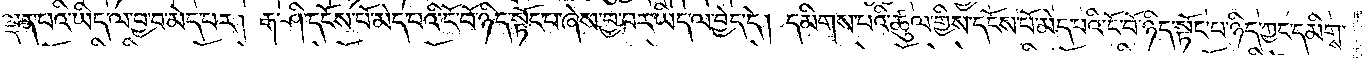ལྡན་པའི་ཡིད་ལ་བྱ་བ་མེད་པར། རྒ་ཤི་དངོས་པོ་མེད་པའི་ངོ་བོ་ཉིད་སྟོང་པ་ཞེས་བྱ་བར་ཡིད་ལ་བྱེད་དེ། དམིགས་པའི་ཚུལ་གྱིས་དངོས་པོ་མེད་པའི་ངོ་བོ་ཉིད་སྟོང་པ་ཉིད་ཀྱང་དམིགས་
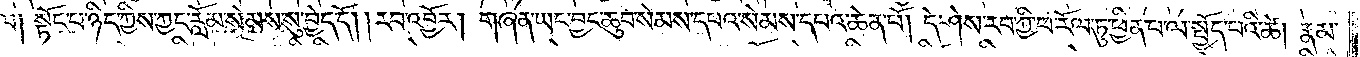ལ། སྟོང་པ་ཉིད་ཀྱིས་ཀྱང་རློམ་སེམས་སུ་བྱེད་དོ། །རབ་འབྱོར། གཞན་ཡང་བྱང་ཆུབ་སེམས་དཔའ་སེམས་དཔའ་ཆེན་པོ། དེ་ཤེས་རབ་ཀྱི་ཕ་རོལ་ཏུ་ཕྱིན་པ་ལ་སྤྱོད་པའི་ཚེ། རྣམ་
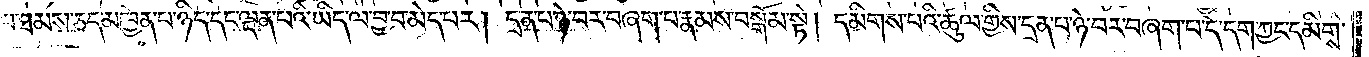པ་ཐམས་ཅད་མཁྱེན་པ་ཉིད་དང་ལྡན་པའི་ཡིད་ལ་བྱ་བ་མེད་པར། དྲན་པ་ཉེ་བར་བཞག་པ་རྣམས་བསྒོམ་སྟེ། དམིགས་པའི་ཚུལ་གྱིས་དྲན་པ་ཉེ་བར་བཞག་པ་དེ་དག་ཀྱང་དམིགས་
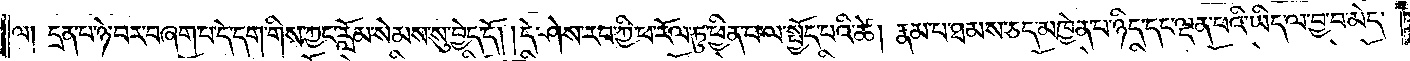ལ། དྲན་པ་ཉེ་བར་བཞག་པ་དེ་དག་གིས་ཀྱང་རློམ་སེམས་སུ་བྱེད་དོ། །དེ་ཤེས་རབ་ཀྱི་ཕ་རོལ་ཏུ་ཕྱིན་པ་ལ་སྤྱོད་པའི་ཚེ། རྣམ་པ་ཐམས་ཅད་མཁྱེན་པ་ཉིད་དང་ལྡན་པའི་ཡིད་ལ་བྱ་བ་མེད་
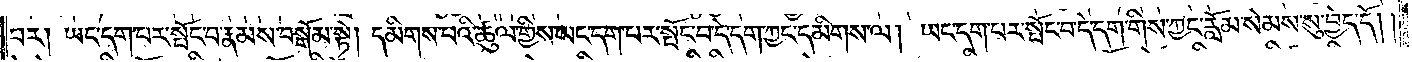པར། ཡང་དག་པར་སྤོང་བ་རྣམས་བསྒོམ་སྟེ། དམིགས་པའི་ཚུལ་གྱིས་ཡང་དག་པར་སྤོང་བ་དེ་དག་ཀྱང་དམིགས་ལ། ཡང་དག་པར་སྤོང་བ་དེ་དག་གིས་ཀྱང་རློམ་སེམས་སུ་བྱེད་དོ༎
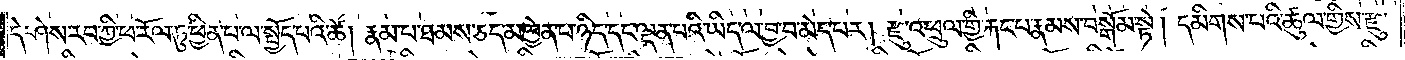དེ་ཤེས་རབ་ཀྱི་ཕ་རོལ་ཏུ་ཕྱིན་པ་ལ་སྤྱོད་པའི་ཚེ། རྣམ་པ་ཐམས་ཅད་མཁྱེན་པ་ཉིད་དང་ལྡན་པའི་ཡིད་ལ་བྱ་བ་མེད་པར། རྫུ་འཕྲུལ་གྱི་རྐང་པ་རྣམས་བསྒོམ་སྟེ། དམིགས་པའི་ཚུལ་གྱིས་རྫུ་
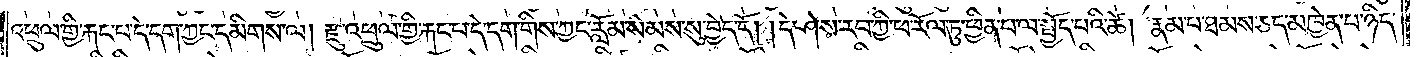འཕྲུལ་གྱི་རྐང་པ་དེ་དག་ཀྱང་དམིགས་ལ། རྫུ་འཕྲུལ་གྱི་རྐང་པ་དེ་དག་གིས་ཀྱང་རློམ་སེམས་སུ་བྱེད་དོ། །དེ་ཤེས་རབ་ཀྱི་ཕ་རོལ་ཏུ་ཕྱིན་པ་ལ་སྤྱོད་པའི་ཚེ། རྣམ་པ་ཐམས་ཅད་མཁྱེན་པ་ཉིད་
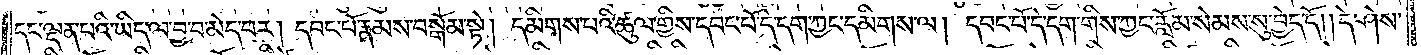དང་ལྡན་པའི་ཡིད་ལ་བྱ་བ་མེད་པར། དབང་པོ་རྣམས་བསྒོམ་སྟེ། དམིགས་པའི་ཚུལ་གྱིས་དབང་པོ་དེ་དག་ཀྱང་དམིགས་ལ། དབང་པོ་དེ་དག་གིས་ཀྱང་རློམ་སེམས་སུ་བྱེད་དོ། །དེ་ཤེས་
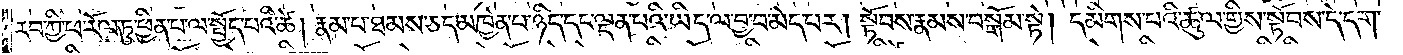རབ་ཀྱི་ཕ་རོལ་ཏུ་ཕྱིན་པ་ལ་སྤྱོད་པའི་ཚེ། རྣམ་པ་ཐམས་ཅད་མཁྱེན་པ་ཉིད་དང་ལྡན་པའི་ཡིད་ལ་བྱ་བ་མེད་པར། སྟོབས་རྣམས་བསྒོམ་སྟེ། དམིགས་པའི་ཚུལ་གྱིས་སྟོབས་དེ་དག་
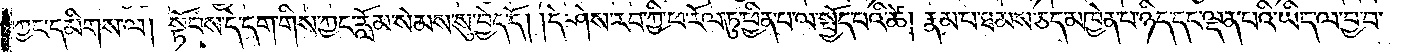ཀྱང་དམིགས་ལ། སྟོབས་དེ་དག་གིས་ཀྱང་རློམ་སེམས་སུ་བྱེད་དོ། །དེ་ཤེས་རབ་ཀྱི་ཕ་རོལ་ཏུ་ཕྱིན་པ་ལ་སྤྱོད་པའི་ཚེ། རྣམ་པ་ཐམས་ཅད་མཁྱེན་པ་ཉིད་དང་ལྡན་པའི་ཡིད་ལ་བྱ་བ་
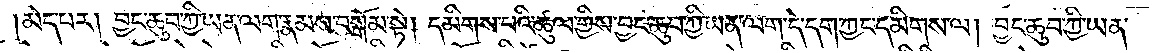མེད་པར། བྱང་ཆུབ་ཀྱི་ཡན་ལག་རྣམས་བསྒོམ་སྟེ། དམིགས་པའི་ཚུལ་གྱིས་བྱང་ཆུབ་ཀྱི་ཡན་ལག་དེ་དག་ཀྱང་དམིགས་ལ། བྱང་ཆུབ་ཀྱི་ཡན་
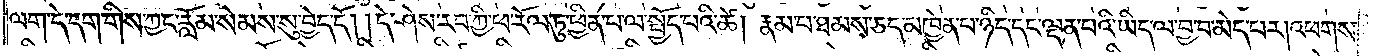ལག་དེ་དག་གིས་ཀྱང་རློམ་སེམས་སུ་བྱེད་དོ། །དེ་ཤེས་རབ་ཀྱི་ཕ་རོལ་ཏུ་ཕྱིན་པ་ལ་སྐྱོད་པའི་ཚེ། རྣམ་པ་ཐམས་ཅད་མཁྱེན་པ་ཉིད་དང་ལྡན་པའི་ཡིད་ལ་བྱ་བ་མེད་པར། འཕགས་
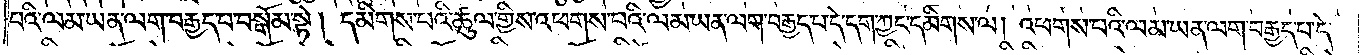པའི་ལམ་ཡན་ལག་བརྒྱད་པ་བསྒོམ་སྟེ། དམིགས་པའི་ཚུལ་གྱིས་འཕགས་པའི་ལམ་ཡན་ལག་བརྒྱད་པ་དེ་དག་ཀྱང་དམིགས་ལ། འཕགས་པའི་ལམ་ཡན་ལག་བརྒྱད་པ་དེ་
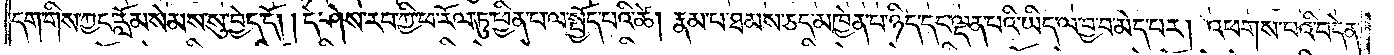དག་གིས་ཀྱང་རློམ་སེམས་སུ་བྱེད་དོ། །དེ་ཤེས་རབ་ཀྱི་ཕ་རོལ་ཏུ་ཕྱིན་པ་ལ་སྤྱོད་པའི་ཚེ། རྣམ་པ་ཐམས་ཅད་མཁྱེན་པ་ཉིད་དང་ལྡན་པའི་ཡིད་ལ་བྱ་བ་མེད་པར། འཕགས་པའི་བདེན་
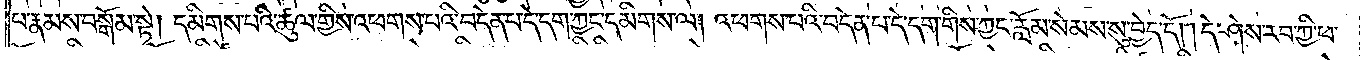པ་རྣམས་བསྒོམ་སྟེ། དམིགས་པའི་ཚུལ་གྱིས་འཕགས་པའི་བདེན་པ་དེ་དག་ཀྱང་དམིགས་ལ། འཕགས་པའི་བདེན་པ་དེ་དག་གིས་ཀྱང་རློམ་སེམས་སུ་བྱེད་དོ། །དེ་ཤེས་རབ་ཀྱི་ཕ་
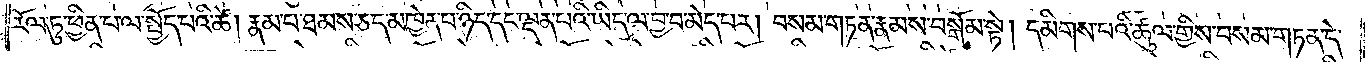རོལ་ཏུ་ཕྱིན་པ་ལ་སྤྱོད་པའི་ཚེ། རྣམ་པ་ཐམས་ཅད་མཁྱེན་པ་ཉིད་དང་ལྡན་པའི་ཡིད་ལ་བྱ་བ་མེད་པར། བསམ་གཏན་རྣམས་བསྒོམ་སྟེ། དམིགས་པའི་ཚུལ་གྱིས་བསམ་གཏན་དེ་
